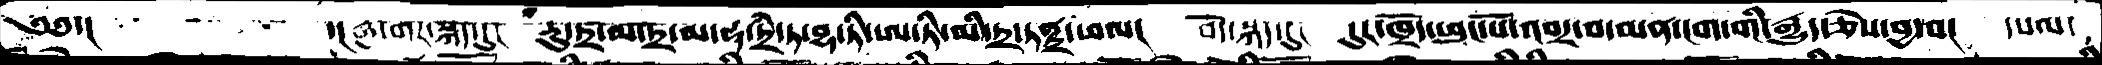༄༅་།    ་།རྒྱ་གར་སྐད་དུ་།   རུ་ཏྲ་མ་ཏྲ་མ་ཧཱ་ཏྲི་ཏ་བྷ་ཏི་ཨ་ཏི་མི་ཏྲ་ཏནྟྲ་ཕལ།   བོད་སྐད་དུ།   དུར་ཁྲོད་ཕུང་པོ་འབར་བ་མན་ངག་གི་རྒྱུད་ཅེས་བྱ་བ།   དཔལ་
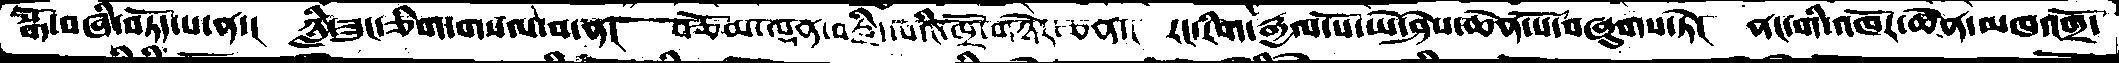སྒོ་བཞི་བཏོད་པ་ན་།  ཉླི་ཟུང་ཅིག་གསལ་བ་ན།   བཅོམ་ལྡན་བརྗིད་པའི་ཁྲོ་གཉེར་ཅན་།  རང་རིག་རྒྱལ་པོ་ཡེ་ཤེས་ཆེན་པོ་བཞུགས་ཏེ།  ནང་གི་འཁོར་ཆེན་མཁའགྲོ་
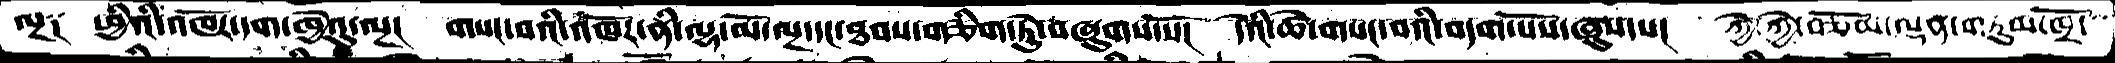ལྔ༑  ཕྱིའི་འཁོར་དག་ཁྱེའུ་ལྔ།  གསང་བའི་འཁོར་ནི་ལྷ་མོ་ལྔ་དང་ཐབས་གཅིག་ཏུ་བཞུགས་སོ།  དེའི་ཚེ་གསང་བའི་བདག་པོས་ཞུས་པ།  ཀྱེ་ཀྱེ་བཅོམ་ལྡན་གཏུམ་ཁྲོ་
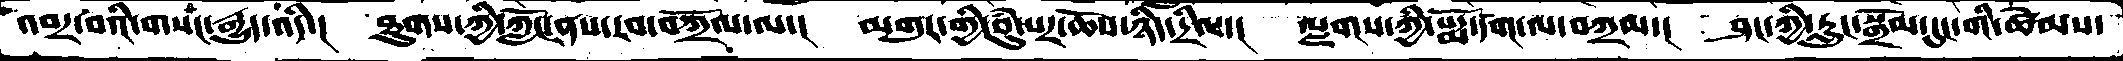འབར་བའི་གསང་རྒྱུད་འདི་།  ཐུགས་ཀྱི་ཀློང་ནས་རབ་བཀྲོལ་ལ་།   མགུར་གྱི་བུཾ་པར་ཆོས་ཉིད་དྲིལ་།  ལྗགས་ཀྱི་པདྨོ་དག་ལ་བཀྲམ་།  ཤང་ཀྱི་རླུང་སྒྲོམ་དུང་གི་ཚེམས་
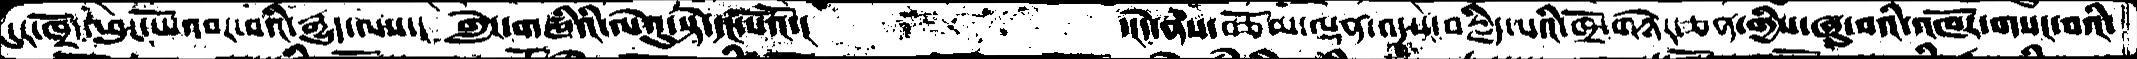དུར་ཁྲོད་ཕུང་པོ་འབར་བའི་རྒྱུད་ལས་།  གླེང་གཞིའི་ལེའུ་སྟེ་དང་པོའོ་།          ་།དེ་ནས་བཅོམ་ལྡན་འདས་བརྗིད་པའི་ཁྲོ་གཉེར་ཅན་གྱིས་ཞུ་བའི་འཁོར་གསང་བའི་
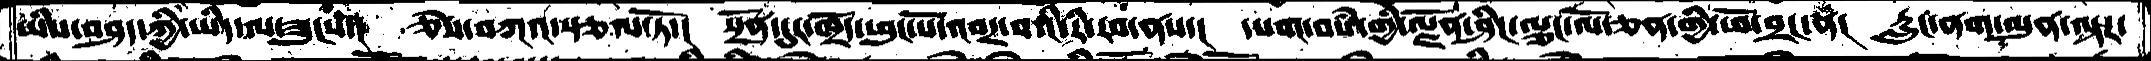ཡིས་བཤད་ཀྱི་ཡིད་ལ་ཟུངས་།  ཅེས་བཀའ་སྩལ་ཏོ་།  སྔོན་དུར་ཁྲོད་ཕུང་པོ་འབར་བའི་རི་རབ་གནས་།  དཔག་བསཾ་ལྗོན་ཤིང་ལྕང་ལོ་ཅན་གྱི་ཕོ་བྲང་ན།  རླུང་ནག་མུན་ལྟར་
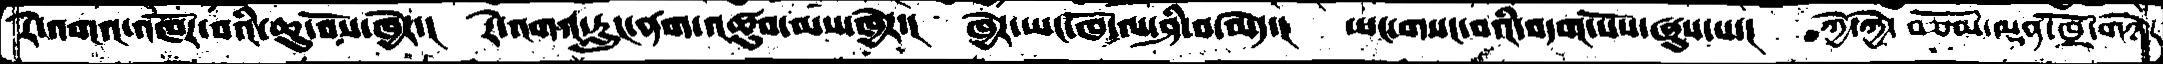རེ་འགའ་འཁོར་བའི་ཆུ་བོས་ཁྱེར་།  རེ་འགའ་རླུང་ནག་འཚུབ་མས་ཁྱེར་།  ཁྱེར་ཡང་ཁོ་ལ་ཤི་བ་མེད་།  ཡང་གསང་བའི་བདག་པོས་ཞུས་པ་།  ཀྱེ་ཀྱེ་ བཅོམ་ལྡན་ཁྲོ་གཉེར
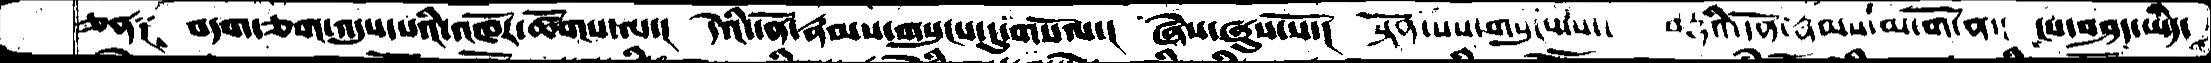ཅན༑  བདག་ཅག་འདུས་པའི་འཁོར་ཚོགས་ལ་།  དེའི་དོན་རྣམས་གསུངས་དུ་གསོལ་།  ཞེས་ཞུས་སོ་།  སྟོན་པས་གསུངས་པས་།  བརྡའི་དོན་རྣམས་མ་གོ་ན་།  ངས་བཤད་ཡིན་
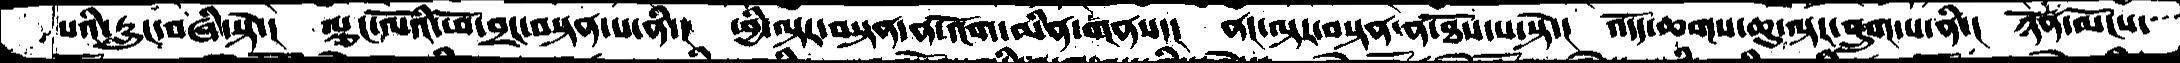པའི་རླུང་བཞི་སྟེ་།   ལྕང་ལོའི་ཕོ་བྲང་བསྟན་པ་ནི་།   ཕྱི་ལྟར་བསྟན་ན་འོག་མིན་གནས་།  ནང་ལྟར་བསྟན་ན་ཐོས་པ་སྟེ་།  འདོད་ཆགས་ཆུ་ལྟར་བླུག་པ་ནི་།  ཉོན་མོངས་
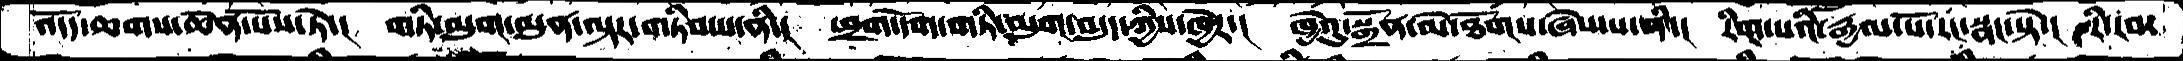འདོད་ཆགས་ཆེན་པོས་ཏེ་།  གཏི་མུག་མུན་ལྟར་བཏིབ་པ་ནི་།  ཕྲག་དོག་གཏི་མུག་བདུད་ཀྱིས་ཁྱེར་།  ཁྱེའུ་སྒྲོན་མེ་ཐོགས་ཞེས་པ་ནི་།  རིག་པའི་རྒྱལ་པོ་རང་སྣང་སྟེ་།  རི་རབ་
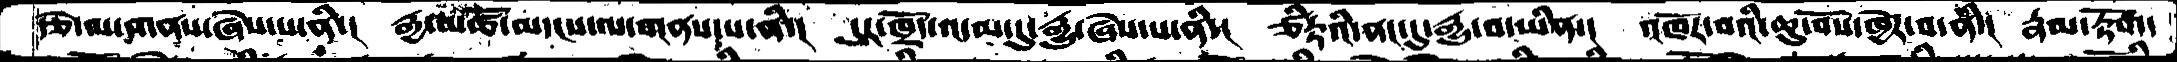རྩེ་ལ་གནས་ཞེས་པ་ནི་།   རྒྱ་མཚོ་མདངས་ལ་གནས་པ་ནི་།  དུར་ཁྲོད་འདམ་དུ་རྒྱུ་ཞེས་པ་ནི་།  ཙིཏྟའི་ནང་དུ་རྒྱུ་བ་ཡིན་།  འཁོར་བའི་ཆུ་བོས་ཁྱེར་བ་ནི་།  རྣམ་རྟོག་
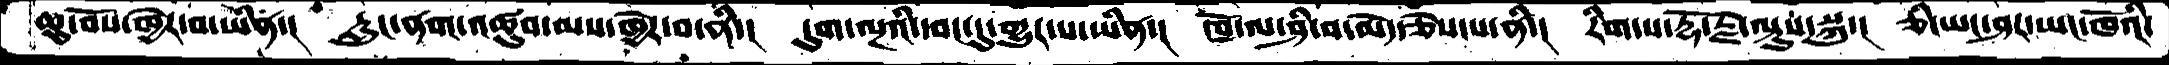ཆུ་བོས་ཁྱེར་བ་ཡིན་།   རླུང་ནག་འཚུབ་མས་ཁྱེར་བ་ནི་།  དུག་ལྔའི་དབང་དུ་གྱུར་པ་ཡིན་།  ཁོ་ལ་ཤི་བ་མེད་ཅེས་པ་ནི་།   རིག་པ་རྡོ་རྗེ་ལྟུས་སྐུ་།  ཅི་ཡང་ཤར་ཡང་ཁོའི་
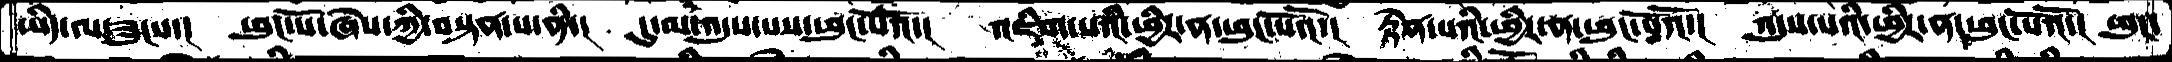ཡིད་ལ་ཟུངས་།  ཕུང་པོ་ཞེས་ཀྱི་བསྟན་པ་ནི་།   དུ་མ་འདུས་པས་ཕུང་པོའོ་།  འཇིག་པའི་ཕྱིར་ན་ཕུང་པོའོ་།  རྟེན་པའི་ཕྱིར་ན་ཕུང་པོའོ་།  འདུས་པའི་ཕྱིར་ན་ཕུང་པོའོ་།  ཕུང་
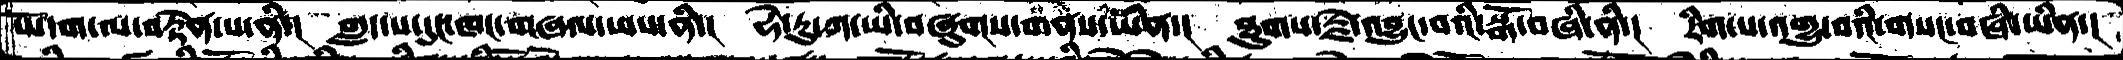པོ་དག་ལ་བརྟེན་པ་ནི་།  གླད་པ་དུང་ཁང་གཞལ་ཡས་ནི་།  ཧེ་རུ་ཀ་ཡི་བཞུགས་གནས་ཡིན་།  ཐུགས་རྗེ་འབྱུང་བའི་སྒོ་བཞི་ནི་།  རིག་པ་འགྱུ་བའི་གསང་བཞི་ཡིན་།
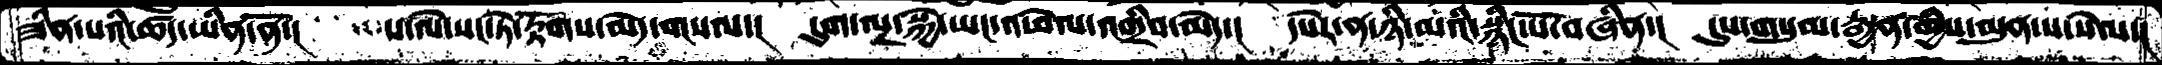ཟིན་པའི་ཚད་ཡིན་ནོ་།  ས་ལེ་སང་ཏེ་རྟོགས་མེད་གསལ་།  དུག་ལྔ་སྐྱེ་ཡང་འཕེལ་འགྲིབ་མེད་།  དཔེར་ན་ཉི་མའི་སྙིང་པོ་བཞིན་།  དུས་གསུམ་རྒྱན་གྱིས་མུན་པ་སེལ་།
